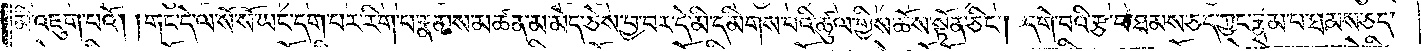མི་འཇུག་པའོ། །གང་དེ་ལ་སོ་སོ་ཡང་དག་པར་རིག་པ་རྣམས་མཚན་མ་མེད་ཅེས་བྱ་བར་དེ་མི་དམིགས་པའི་ཚུལ་གྱིས་ཆོས་སྟོན་ཅིང༌། དགེ་བའི་རྩ་བ་ཐམས་ཅད་ཀྱང་རྣམ་པ་ཐམས་ཅད་
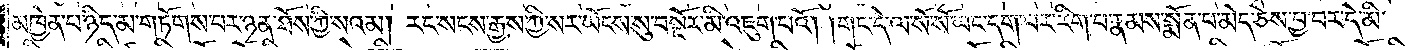མཁྱེན་པ་ཉིད་མ་གཏོགས་པར་ཉན་ཐོས་ཀྱི་སའམ། རང་སངས་རྒྱས་ཀྱི་སར་ཡོངས་སུ་བསྔོར་མི་འཇུག་པའོ། །གང་དེ་ལ་སོ་སོ་ཡང་དག་པར་རིག་པ་རྣམས་སྨོན་པ་མེད་ཅེས་བྱ་བར་དེ་མི་
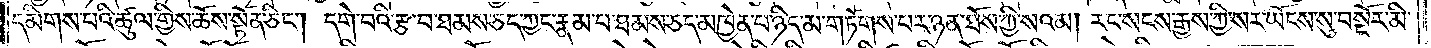དམིགས་པའི་ཚུལ་གྱིས་ཆོས་སྟོན་ཅིང༌། དགེ་བའི་རྩ་བ་ཐམས་ཅད་ཀྱང་རྣམ་པ་ཐམས་ཅད་མཁྱེན་པ་ཉིད་མ་གཏོགས་པར་ཉན་ཐོས་ཀྱི་སའམ། རང་སངས་རྒྱས་ཀྱི་སར་ཡོངས་སུ་བསྔོར་མི་
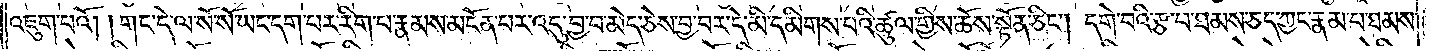འཇུག་པའོ། །གང་དེ་ལ་སོ་སོ་ཡང་དག་པར་རིག་པ་རྣམས་མངོན་པར་འདུ་བྱ་བ་མེད་ཅེས་བྱ་བར་དེ་མི་དམིགས་པའི་ཚུལ་གྱིས་ཆོས་སྟོན་ཅིང༌། དགེ་བའི་རྩ་བ་ཐམས་ཅད་ཀྱང་རྣམ་པ་ཐམས་
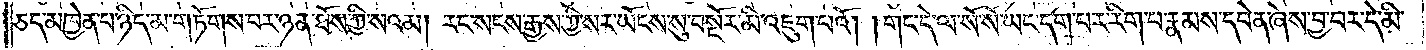ཅད་མཁྱེན་པ་ཉིད་མ་གཏོགས་བར་ཉན་ཐོས་ཀྱི་སའམ། རང་སངས་རྒྱས་ཀྱི་སར་ཡོངས་སུ་བསྔོར་མི་འཇུག་པའོ། །གང་དེ་ལ་སོ་སོ་ཡང་དག་པར་རིག་པ་རྣམས་དབེན་ཞེས་བྱ་བར་དེ་མི་
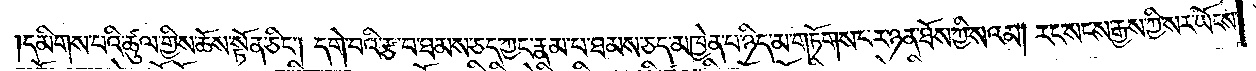དམིགས་པའི་ཚུལ་གྱིས་ཆོས་སྟོན་ཅིང༌། དགེ་བའི་རྩ་བ་ཐམས་ཅད་ཀྱང་རྣམ་པ་ཐམས་ཅད་མཁྱེན་པ་ཉིད་མ་གཏོགས་པར་ཉན་ཐོས་ཀྱི་སའམ། རང་སངས་རྒྱས་ཀྱི་སར་ཡོངས་
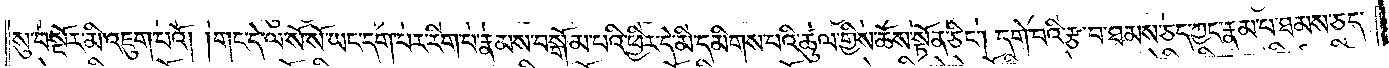སུ་བསྔོར་མི་འཇུག་པའོ། །གང་དེ་ལ་སོ་སོ་ཡང་དག་པར་རིག་པ་རྣམས་བསྒོམ་པའི་ཕྱིར་དེ་མི་དམིགས་པའི་ཚུལ་གྱིས་ཆོས་སྟོན་ཅིང༌། དགེ་བའི་རྩ་བ་ཐམས་ཅད་ཀྱང་རྣམ་པ་ཐམས་ཅད་
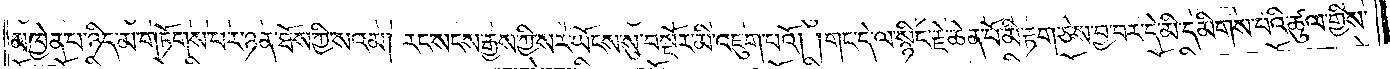མཁྱེན་པ་ཉིད་མ་གཏོགས་པར་ཉན་ཐོས་ཀྱི་སའམ། རང་སངས་རྒྱས་ཀྱི་སར་ཡོངས་སུ་བསྔོར་མི་འཇུག་པའོ། །གང་དེ་ལ་སྙིང་རྗེ་ཆེན་པོ་མི་རྟག་ཅེས་བྱ་བར་དེ་མི་དམིགས་པའི་ཚུལ་གྱིས་
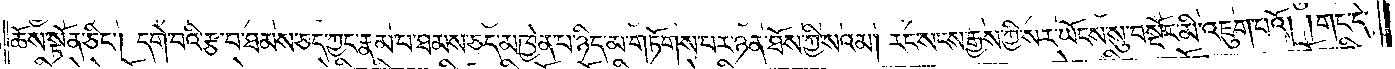ཆོས་སྟོན་ཅིང༌། དགེ་བའི་རྩ་བ་ཐམས་ཅད་ཀྱང་རྣམ་པ་ཐམས་ཅད་མཁྱེན་པ་ཉིད་མ་གཏོགས་པར་ཉན་ཐོས་ཀྱི་སའམ། རང་སངས་རྒྱས་ཀྱི་སར་ཡོངས་སུ་བསྔོར་མི་འཇུག་པའོ། །གང་དེ་
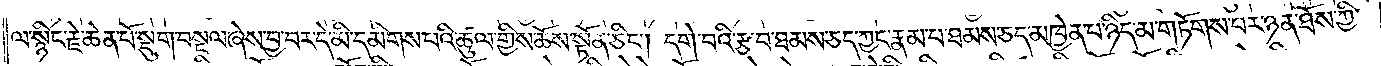ལ་སྙིང་རྗེ་ཆེན་པོ་སྡུག་བསྔལ་ཞེས་བྱ་བར་དེ་མི་དམིགས་པའི་ཚུལ་གྱིས་ཆོས་སྟོན་ཅིང༌། དགེ་བའི་རྩ་བ་ཐམས་ཅད་ཀྱང་རྣམ་པ་ཐམས་ཅད་མཁྱེན་པ་ཉིད་མ་གཏོགས་པར་ཉན་ཐོས་ཀྱི་
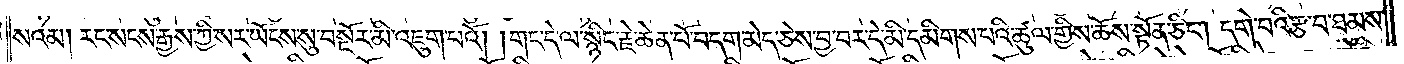སའམ། རང་སངས་རྒྱས་ཀྱི་སར་ཡོངས་སུ་བསྔོར་མི་འཇུག་པའོ། །གང་དེ་ལ་སྙིང་རྗེ་ཆེན་པོ་བདག་མེད་ཅེས་བྱ་བར་དེ་མི་དམིགས་པའི་ཚུལ་གྱིས་ཆོས་སྟོན་ཅིང༌། དགེ་བའི་རྩ་བ་ཐམས་
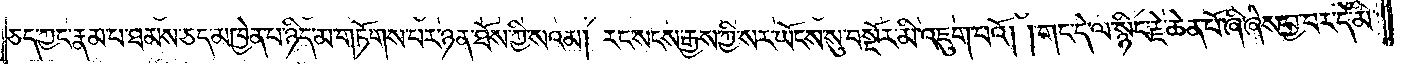ཅད་ཀྱང་རྣམ་པ་ཐམས་ཅད་མཁྱེན་པ་ཉིད་མ་གཏོགས་པར་ཉན་ཐོས་ཀྱི་སའམ། རང་སངས་རྒྱས་ཀྱི་སར་ཡོངས་སུ་བསྔོར་མི་འཇུག་པའོ། །གང་དེ་ལ་སྙིང་རྗེ་ཆེན་པོ་ཞི་ཞེས་བྱ་བར་དེ་མི་
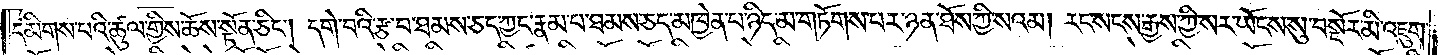དམིགས་པའི་ཚུལ་གྱིས་ཆོས་སྟོན་ཅིང༌། དགེ་བའི་རྩ་བ་ཐམས་ཅད་ཀྱང་རྣམ་པ་ཐམས་ཅད་མཁྱེན་པ་ཉིད་མ་གཏོགས་པར་ཉན་ཐོས་ཀྱི་སའམ། རང་སངས་རྒྱས་ཀྱི་སར་ཡོངས་སུ་བསྔོར་མི་འཇུག་
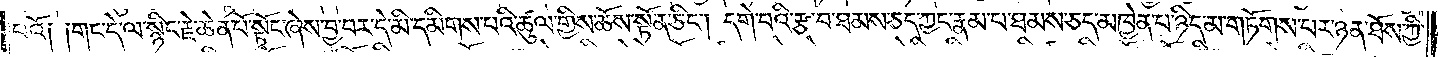པའོ༑ ༑གང་དེ་ལ་སྙིང་རྗེ་ཆེན་པོ་སྟོང་ཞེས་བྱ་བར་དེ་མི་དམིགས་པའི་ཚུལ་གྱིས་ཆོས་སྟོན་ཅིང༌། དགེ་བའི་རྩ་བ་ཐམས་ཅད་ཀྱང་རྣམ་པ་ཐམས་ཅད་མཁྱེན་པ་ཉིད་མ་གཏོགས་པར་ཉན་ཐོས་ཀྱི་
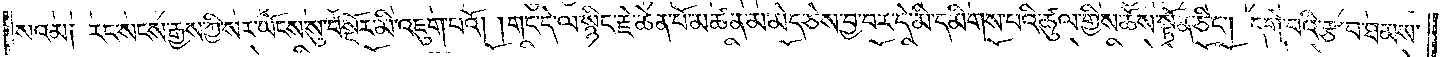སའམ༑ རང་སངས་རྒྱས་ཀྱི་སར་ཡོངས་སུ་བསྔོར་མི་འཇུག་པའོ། །གང་དེ་ལ་སྙིང་རྗེ་ཆེན་པོ་མཚན་མ་མེད་ཅེས་བྱ་བར་དེ་མི་དམིགས་པའི་ཚུལ་གྱིས་ཆོས་སྟོན་ཅིང༌། དགེ་བའི་རྩ་བ་ཐམས་
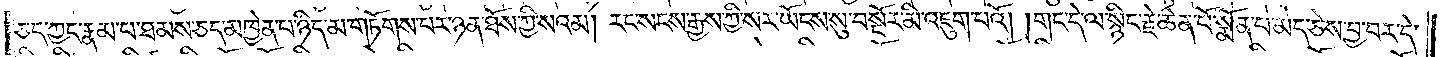ཅད་ཀྱང་རྣམ་པ་ཐམས་ཅད་མཁྱེན་པ་ཉིད་མ་གཏོགས་པར་ཉན་ཐོས་ཀྱི་སའམ། རང་སངས་རྒྱས་ཀྱི་སར་ཡོངས་སུ་བསྔོར་མི་འཇུག་པའོ། །གང་དེ་ལ་སྙིང་རྗེ་ཆེན་པོ་སྨོན་པ་མེད་ཅེས་བྱ་བར་དེ་
